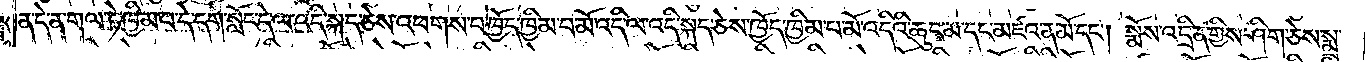ན་དེ་ན་གལ་ཏེ་ཁྱིམ་པ་དེ་དགེ་སློང་དེ་ལ་འདི་སྐད་ཅེས་འཕགས་པ་ཁྱོད་ཁྱིམ་པ་མོ་འདི་ལ་འདི་སྐད་ཅེས་ཁྱོད་ཁྱིམ་པ་མོ་འདིའི་ཆུང་མ་དང་མཛའ་ན་མོ་དང༌། སྨོས་འདྲིན་གྱིས་ཤིག་ཅེས་སྨྲ་
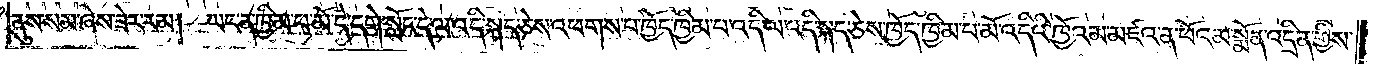ནུས་སམ་ཞེས་ཟེར་རམ། ཡང་ན་ཁྱིམ་པ་མོ་དེ་དགེ་སློང་དེ་ལ་འདི་སྐད་ཅེས་འཕགས་པ་ཁྱོད་ཁྱིམ་པ་འདི་ལ་འདི་སྐད་ཅེས་ཁྱོད་ཁྱིམ་པ་མོ་འདིའི་ཁྱོའམ་མཛའ་ན་ཕོའམ་སྨོན་འདྲིན་གྱིས་
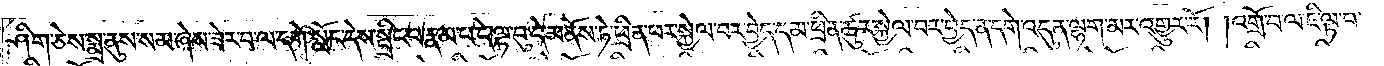ཤིག་ཅེས་སྨྲ་ནུས་སམ་ཞེས་ཟེར་བ་ལ་དགེ་སློང་དེས་སྤྲིང་པ་རྣམ་པ་དེ་ལྟ་བུ་དེ་མནོས་ཏེ་ཕྲིན་ཕར་སྐྱེལ་བར་བྱེད་དམ་ཕྲིན་ཚུར་སྐྱེལ་བར་བྱེད་ན་དགེ་འདུན་ལྷག་མར་འགྱུར་རོ། །འགྲོ་བ་ལ་ཇི་ལྟ་བ་
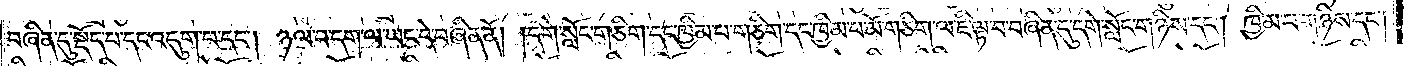བཞིན་དུ་སྡོད་པ་དང་འདུག་པ་དང༌། ཉལ་བ་དག་ལ་ཡང་དེ་བཞིན་ནོ། །དགེ་སློང་གཅིག་དང་ཁྱིམ་པ་གཅིག་དང་ཁྱིམ་པ་མོ་གཅིག་ལ་ཇི་ལྟ་བ་བཞིན་དུ་དགེ་སློང་གཉིས་དང༌། ཁྱིམ་པ་གཉིས་དང༌།
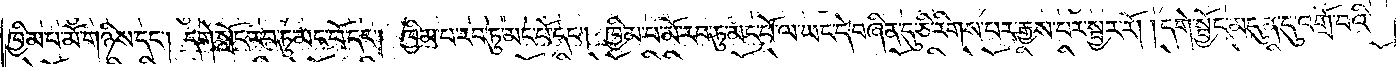ཁྱིམ་པ་མོ་གཉིས་དང༌། དགེ་སློང་རབ་ཏུ་མང་པོ་དང༌། ཁྱིམ་པ་རབ་ཏུ་མང་པོ་དང༌། ཁྱིམ་པ་མོ་རབ་ཏུ་མང་པོ་ལ་ཡང་དེ་བཞིན་དུ་ཅི་རིགས་པར་རྒྱས་པར་སྦྱར་རོ། །དགེ་སྦྱོང་མདུན་དུ་འགྲོ་བའི་
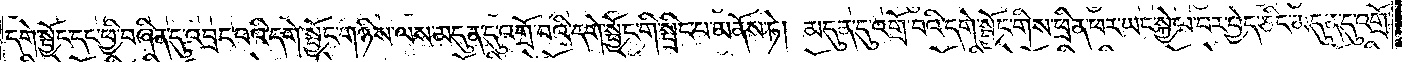དགེ་སྦྱོང་དང་ཕྱི་བཞིན་དུ་འབྲང་བའི་དགེ་སྦྱོང་གཉིས་ལས་མདུན་དུ་འགྲོ་བའི་དགེ་སྦྱོང་གི་སྤྲིང་པ་མནོས་ཏེ། མདུན་དུ་འགྲོ་བའི་དགེ་སྦྱོང་གིས་ཕྲིན་ཕར་ཡང་སྐྱེལ་བར་བྱེད་ཅིང་མདུན་དུ་འགྲོ་
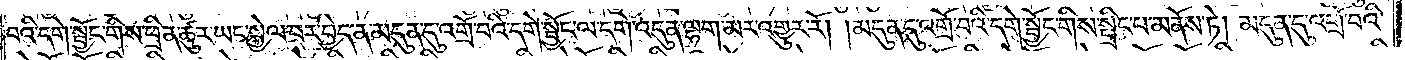བའི་དགེ་སྦྱོང་གིས་ཕྲིན་ཚུར་ཡང་སྐྱེལ་བར་བྱེད་ན་མདུན་དུ་འགྲོ་བའི་དགེ་སྦྱོང་ལ་དགེ་འདུན་ལྷག་མར་འགྱུར་རོ། །མདུན་དུ་འགྲོ་བའི་དགེ་སྦྱོང་གིས་སྤྲིང་པ་མནོས་ཏེ། མདུན་དུ་འགྲོ་བའི་
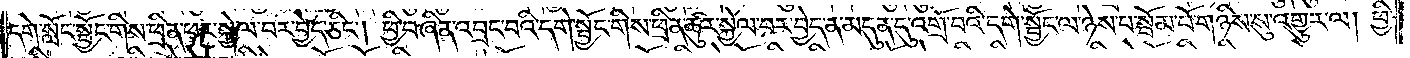དགེ་སློང་སྦྱོང་གིས་ཕྲིན་ཕར་སྐྱེལ་བར་བྱེད་ཅིང༌། ཕྱི་བཞིན་འབྲང་བའི་དགེ་སྦྱོང་གིས་ཕྲིན་ཚུར་སྐྱེལ་བར་བྱེད་ན་མདུན་དུ་འགྲོ་བའི་དགེ་སྦྱོང་ལ་ཉེས་པ་སྦོམ་པོ་གཉིས་སུ་འགྱུར་ལ། ཕྱི་
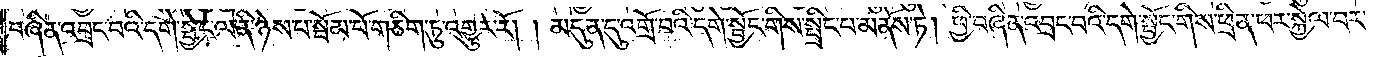བཞིན་འབྲང་བའི་དགེ་སློང་ལ་ནི་ཉེས་པ་སྦོམ་པོ་གཅིག་ཏུ་འགྱུར་རོ། །མདུན་དུ་འགྲོ་བའི་དགེ་སྦྱོང་གིས་སྤྲིང་པ་མནོས་ཏེ། ཕྱི་བཞིན་འབྲང་བའི་དགེ་སྦྱོང་གིས་ཕྲིན་ཕར་སྐྱེལ་བར་
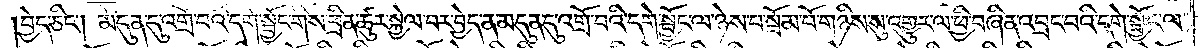།བྱེད་ཅིང༌། མདུན་དུ་འགྲོ་བའི་དགེ་སྦྱོང་གིས་ཕྲིན་ཚུར་སྐྱེལ་བར་བྱེད་ན་མདུན་དུ་འགྲོ་བའི་དགེ་སྦྱོང་ལ་ཉེས་པ་སྦོམ་པོ་གཉིས་སུ་འགྱུར་ལ་ཕྱི་བཞིན་འབྲང་བའི་དགེ་སྦྱོང་ལ་
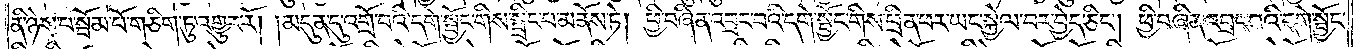ནི་ཉེས་པ་སྦོམ་པོ་གཅིག་ཏུ་འགྱུར་རོ། །མདུན་དུ་འགྲོ་བའི་དགེ་སྦྱོང་གིས་སྤྲིང་པ་མནོས་ཏེ། ཕྱི་བཞིན་འབྲང་བའི་དགེ་སྦྱོང་གིས་ཕྲིན་ཕར་ཡང་སྐྱེལ་བར་བྱེད་ཅིང༌། ཕྱི་བཞིན་འབྲང་བའི་དགེ་སྦྱོང་
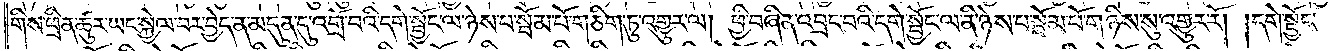གིས་ཕྲིན་ཚུར་ཡང་སྐྱེལ་བར་བྱེད་ན་མདུན་དུ་འགྲོ་བའི་དགེ་སྦྱོང་ལ་ཉེས་པ་སྦོམ་པོ་གཅིག་ཏུ་འགྱུར་ལ། ཕྱི་བཞིན་འབྲང་བའི་དགེ་སྦྱོང་ལ་ནི་ཉེས་པ་སྦོམ་པོ་གཉིས་སུ་འགྱུར་རོ། །དགེ་སྦྱོང་
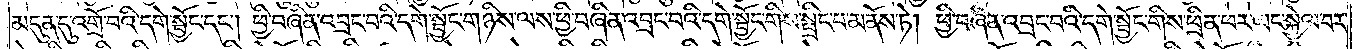མདུན་དུ་འགྲོ་བའི་དགེ་སྦྱོང་དང༌། ཕྱི་བཞིན་འབྲང་བའི་དགེ་སྦྱོང་གཉིས་ལས་ཕྱི་བཞིན་འབྲང་བའི་དགེ་སྦྱོང་གིས་སྤྲིང་པ་མནོས་ཏེ། ཕྱི་བཞིན་འབྲང་བའི་དགེ་སྦྱོང་གིས་ཕྲིན་ཕར་ཡང་སྐྱེལ་བར་
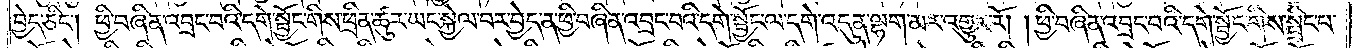བྱེད་ཅིང༌། ཕྱི་བཞིན་འབྲང་བའི་དགེ་སྦྱོང་གིས་ཕྲིན་ཚུར་ཡང་སྐྱེལ་བར་བྱེད་ན་ཕྱི་བཞིན་འབྲང་བའི་དགེ་སྦྱོང་ལ་དགེ་འདུན་ལྷག་མར་འགྱུར་རོ། །ཕྱི་བཞིན་འབྲང་བའི་དགེ་སྦྱོང་གིས་སྤྲིང་པ་
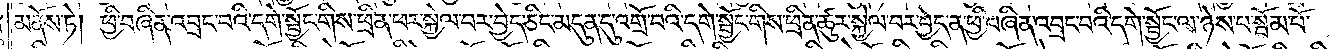མནོས་ཏེ། ཕྱི་བཞིན་འབྲང་བའི་དགེ་སྦྱོང་གིས་ཕྲིན་ཕར་སྐྱེལ་བར་བྱེད་ཅིང་མདུན་དུ་འགྲོ་བའི་དགེ་སྦྱོང་གིས་ཕྲིན་ཚུར་སྐྱེལ་བར་བྱེད་ན་ཕྱི་བཞིན་འབྲང་བའི་དགེ་སྦྱོང་ལ་ཉེས་པ་སྦོམ་པོ་
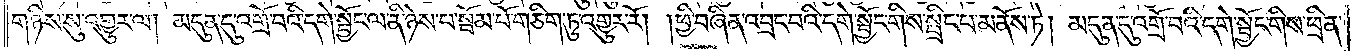གཉིས་སུ་འགྱུར་ལ། མདུན་དུ་འགྲོ་བའི་དགེ་སྦྱོང་ལ་ནི་ཉེས་པ་སྦོམ་པོ་གཅིག་ཏུ་འགྱུར་རོ། །ཕྱི་བཞིན་འབྲང་བའི་དགེ་སྦྱོང་གིས་སྤྲིང་པ་མནོས་ཏེ། མདུན་དུ་འགྲོ་བའི་དགེ་སྦྱོང་གིས་ཕྲིན་
